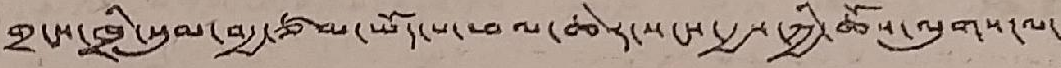གྲངས་ཁྲི་སུམ་བརྒྱ་ཙམ་ཡོད་པ་ཕལ་ཆེར་སངས་རྒྱས་ཀྱི་ཆོས་ལུགས་ལ་
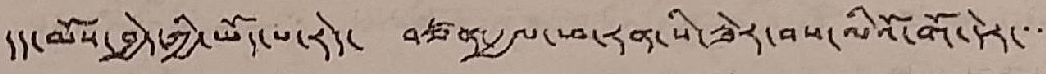དད་མོས་བྱེད་ཀྱི་ཡོད་པ་རེད་ བཙན་རྒྱལ་ཕ་རན་སི་ཟེར་བས་ལིའོ་གོ་དེར་་་་
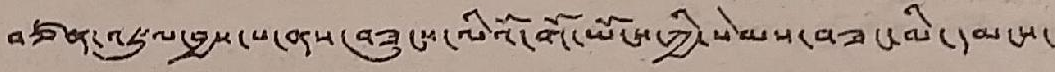བཙན་འཛུལ་བྱས་པ་ནས་བཟུངས་ལིའོ་གོ་ཡོངས་ཀྱི་སེམས་བཟང་མི་དམངས་
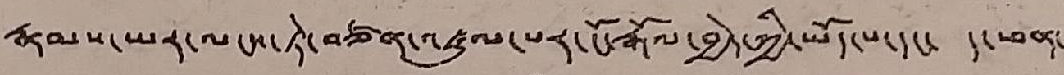རྣམས་ཡར་ལངས་ཏེ་བཙན་འཛུལ་པར་ངོ་རྒོལ་བྱེད་ཀྱི་ཡོད་པ་དང་ ད་ཕན་
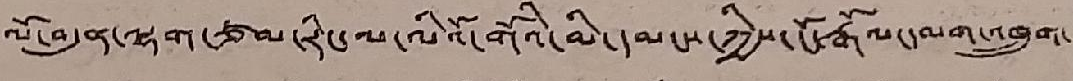ལོ་བདུན་ལྷག་ཙམ་རིང་ལ་ལིའོ་གོའི་མི་དམངས་ཀྱིས་ངོ་རྒོལ་དམག་འཁྲུག་
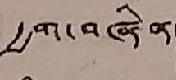རྒྱག་བཞིན་
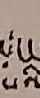པའི་
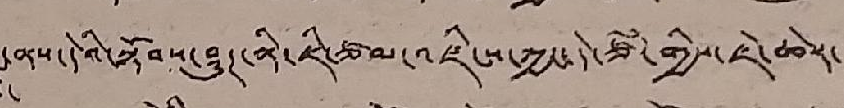ངང་ནས་དེའི་སྟོབས་ཤུཊ་ནི་ཇི་ཙམ་འཛིངས་ཀྱང་དེ་ཙཾ་གྱིས་ཇེ་ཆེར་
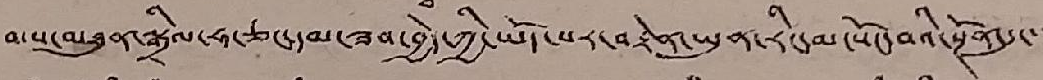མས་མཐུན་སྒྲིལ་ཧ་ཅང་དམ་ཟབ་བྱེད་ཀྱི་ཡོད་པར་བརྟེན་ཡུན་རིང་མ་སོང་བའི་སྔོན་དུ་་་
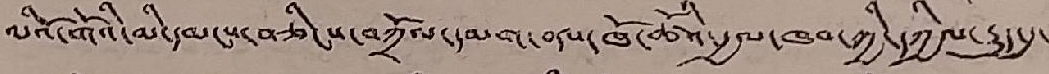ལིའོ་གོའི་མི་དམངས་བཅིངས་བཀྲོལ་དམག་ནས་ཁོ་ཚོའི་རྒྱལ་ཁབ་ཀྱི་དཀྱིལ་རྒྱུད་དུ་
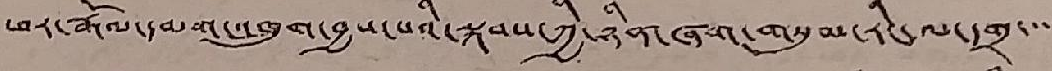ཕར་རྒོལ་དམག་འཕྲུག་བྱས་པའི་སྐབས་ཀྱི་ཉིན་ཞག་གསུམ་རིང་ལ་དགྲ་་་་
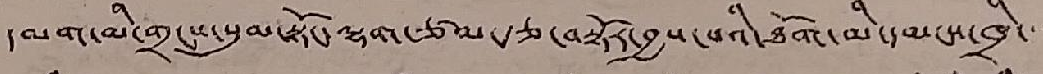དམག་མི་གྲངས་སུམ་སྟོང་ལྷག་ཙམ་རྩ་བསྟོར་བྱས་པའི་ཐོག་མི་དམངས་ཁྲི་་་་
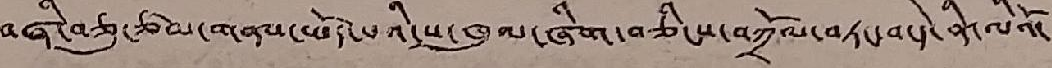བཞི་བཅུ་ཙམ་གནས་ཕོད་པའི་ས་ཁུལ་ཞིག་བཅིངས་བཀྲོལ་བཏང་བ་དེ་ནི་ལིའོ་
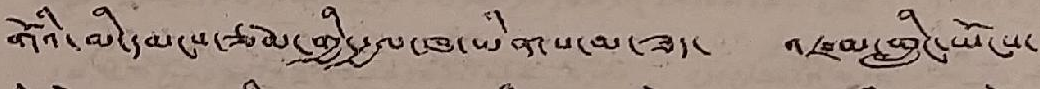གོའི་མི་དམངས་ཙམ་གྱི་རྒྱལ་ཁབ་ཡིན་པ་མ་ཟད་ འཛམ་གླིང་ཡོངས་
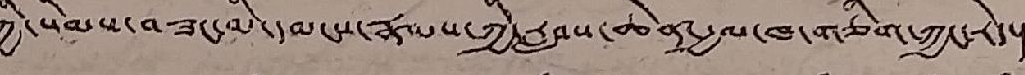ཀྱི་སེམས་བཟང་མི་དམངས་རྣམས་ཀྱི་རླབས་ཆེན་རྒྱལ་ཁབ་གཅིག་ཀྱང་རེད།
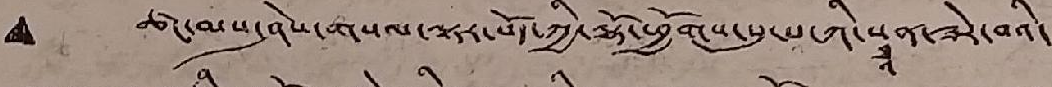ཚང་མས་ཤེས་གསལ་ལྟར་བོད་ཀྱི་ལྷོ་ཕྱོགས་སུ་པ་ཀི་སྠཱན་ཟེར་བའི་
